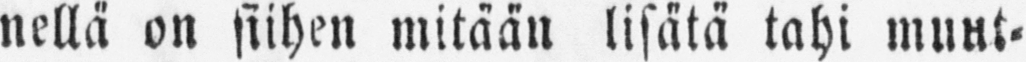nellä on siihen mitään lisätä tahi muut-
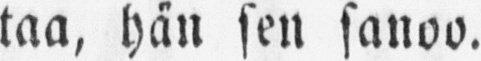taa, hän sen sanoo.
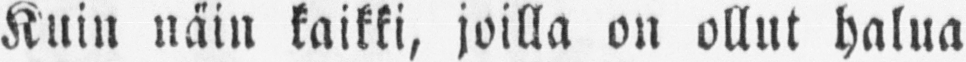Kuin näin kaikki, joilla on ollut halua
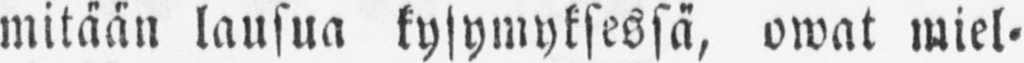mitään lausua kysymyksessä, owat miel-
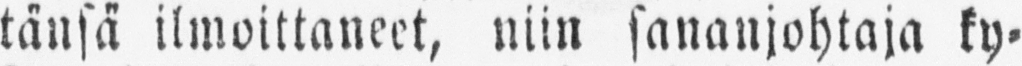tänsä ilmoittaneet, niin sananjohtaja ky-
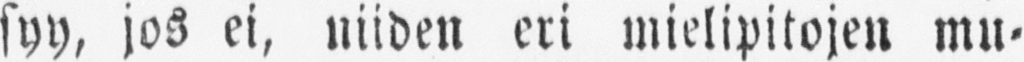syy, jos ei, niiden eri mielipitojen mu-
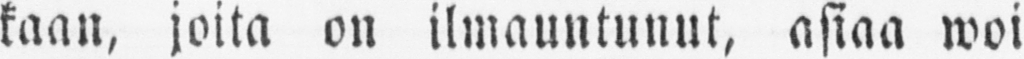kaan, joita on ilmauntunut, asiaa woi
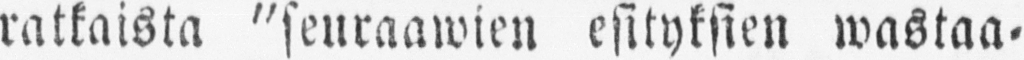ratkaista "seuraawien esityksien wastaa-
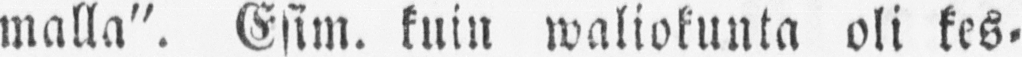malla". Esim. kuin waliokunta oli kes-
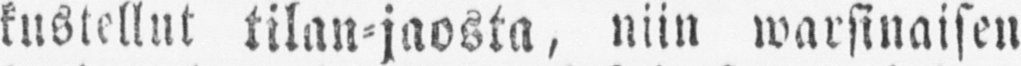kustellut tilan-jaosta, niin warsinaisen
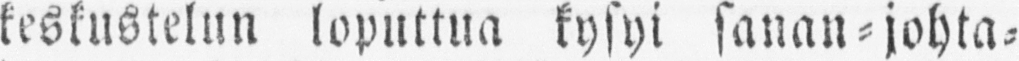keskustelun loputtua kysyi sanan-johta-
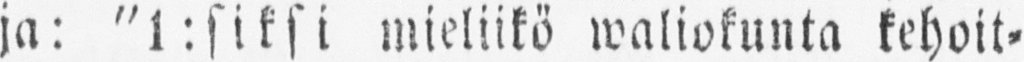ja: "1:siksi mieliikö waliokunta kehoit-
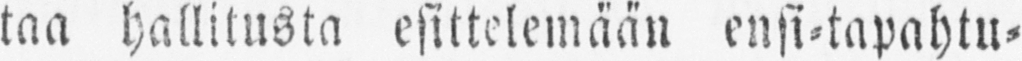taa hallitusta esittelemään ensi-tapahtu-
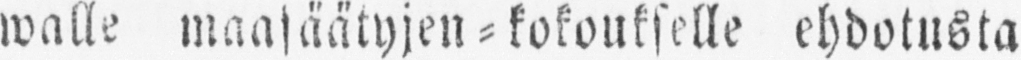walle maasäätyjen-kokoukselle ehdotusta
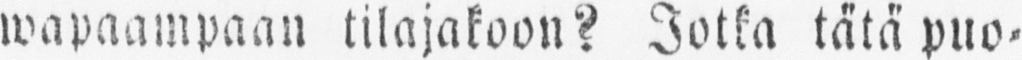wapaampaan tilajakoon? Jotka tätä puo-
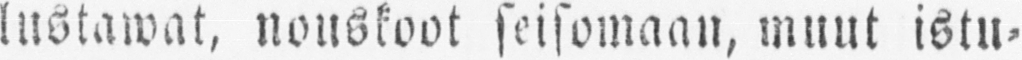lustawat, nouskoot seisomaan, muut istu-
